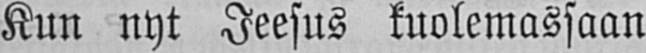Kun nyt Jeesus kuolemassaan
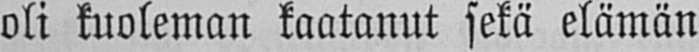oli kuoleman kaatanut sekä elämän
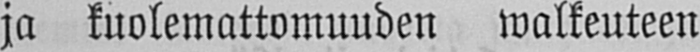ja kuolemattomuuden walkeuteen
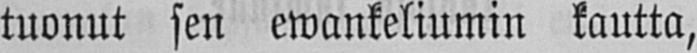tuonut sen ewankeliumin kautta,
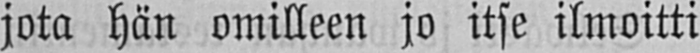jota hän omilleen jo itse ilmoitti
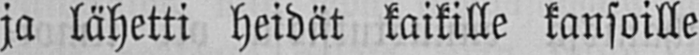ja lähetti heidät kaikille kansoille
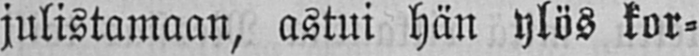julistamaan, astui hän ylös kor-
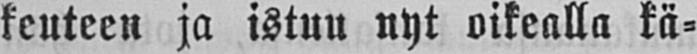keuteen ja istuu nyt oikealla kä-
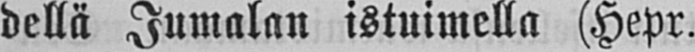dellä Jumalan istuimella (Hepr.
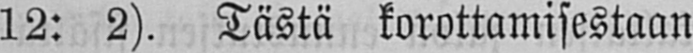12: 2). Tästä korottamisestaan
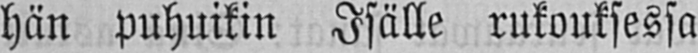hän puhuikin Isälle rukouksessa
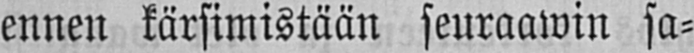ennen kärsimistään seuraawin sa-
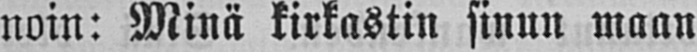noin: Minä kirkastin sinun maan
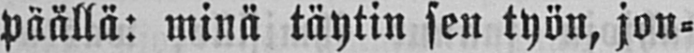päällä: minä täytin sen työn, jon-
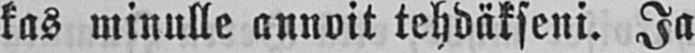kas minulle annoit tehdäkseni. Ja
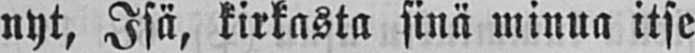nyt, Isä, kirkasta sinä minua itse
